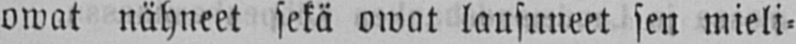owat nähneet sekä owat lausuneet sen mieli-
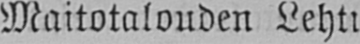Maitotalouden Lehti
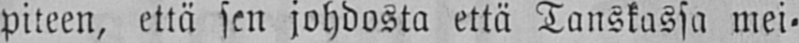piteen, että sen johdosta että Tanskassa mei-
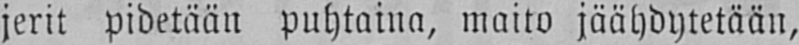jerit pidetään puhtaina, maito jäähdytetään,
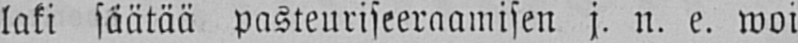laki säätää pasteuriseeraamisen j. n. e. woi
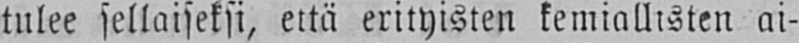tulee sellaiseksi, että erityisten kemiallisten ai-
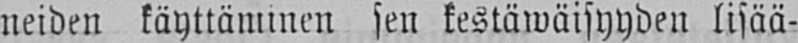neiden käyttäminen sen kestäwäisyyden lisää-
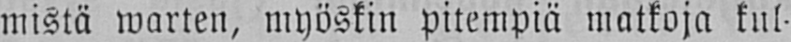mistä warten, myöskin pitempiä matkoja kul-
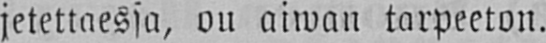jetettaessa, ou aiwan tarpeeton.
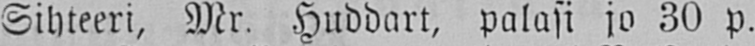Sihteeri, Mr. Huddart, palasi jo 30 p.
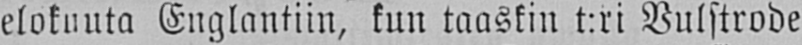elokuuta Englantiin, kun taaskin t:ri Vulstrode
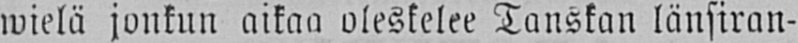wielä jonkun aikaa oleskelee Tanskan länsiran-
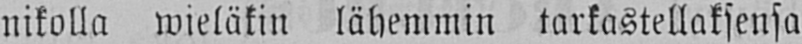nikolla wieläkin lähemmin tarkastellaksensa
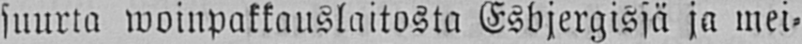suurta woinpakkauslaitosta Esbjergissä ja mei-
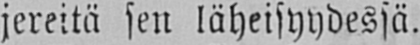jereitä sen läheisyydessä.
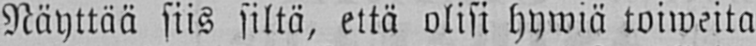Näyttää siis siltä, että olisi hywiä toiweita
